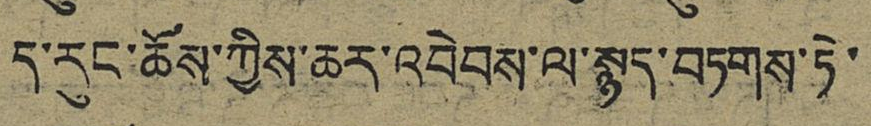ད་རུང་ཆོས་ཀྱིས་ཆར་འབེབས་ལ་སྙད་བཏགས་ཏེ
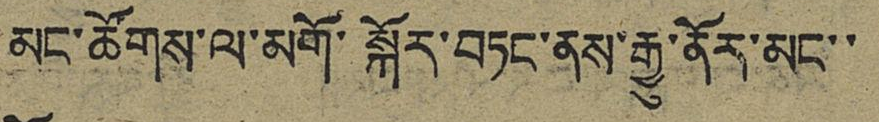མང་ཚོགས་ལ་མགོ་སྐོར་བཏང་ནས་རྒྱུ་ནོར་མང་་
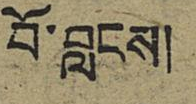པོ་བླངས།
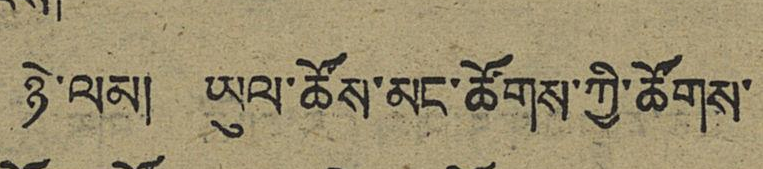ཉེ་ལམ། ཡུལ་ཚོས་མང་ཚོགས་ཀྱི་ཚོགས་
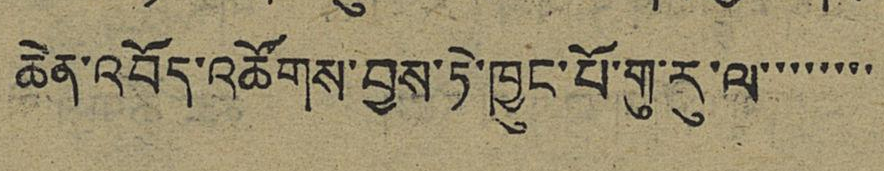ཆེན་འབོད་འཚོགས་བྱས་ཏེ་ཁྱུང་པོར་གུ་རུ་ལ་་་་་་་་
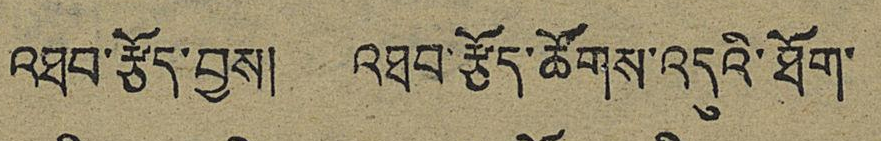འཐབ་རྩོད་བྱས། འཐབ་རྩོད་ཚོགས་འདུའི་ཐོག་
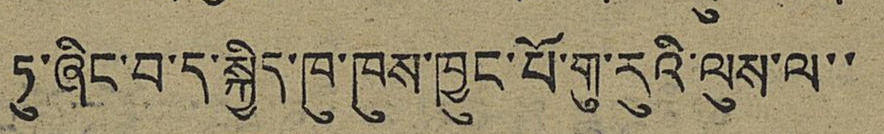ཏུ་ཞིང་བ་ད་སྐྱིད་ཁུ་ཁུས་ཁྱུང་པོ་གུ་རུའི་ལུས་ལ་་
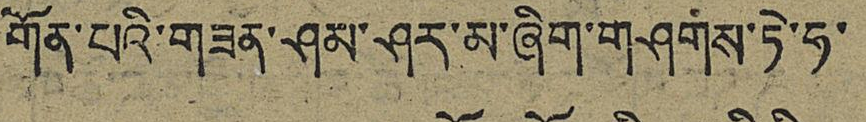གོན་པའི་གཟན་ཤམ་ཤར་མ་ཞིག་གཤགས་ཏེ་ཧ་
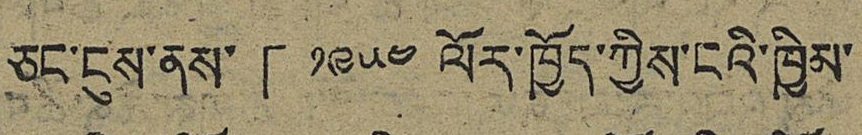ཅང་ངུས་ནས་「༡༩༥༤ ལོར་ཁྱོད་ཀྱིས་ངའི་ཁྱིམ་
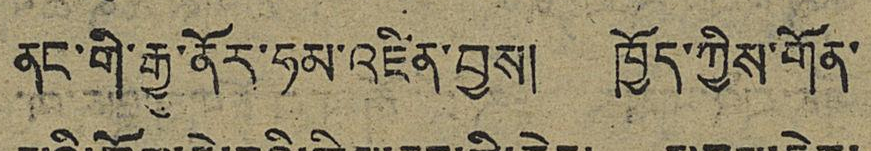ནང་གི་རྒྱུ་ནོར་ཧམ་འཛིན་བྱས། ཁྱོད་ཀྱིས་གོན་
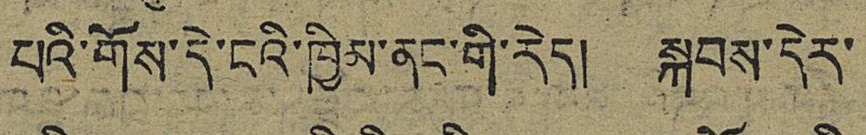པའི་གོས་དེ་ངའི་ཁྱིམ་ནང་གི་རེད། སྐབས་དེར་
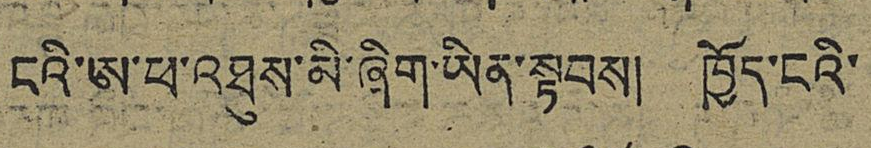ངའི་ཨ་ཕ་འཐུས་མི་ཞིག་ཡིན་སྟབས། ཁྱོད་ངའི་
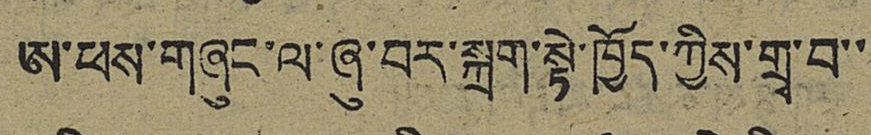ཨ་ཕས་གཞུང་ལ་ཞུ་བར་སྐྲག་སྟེ་ཁྱོད་ཀྱིས་གྲྭ་བ་
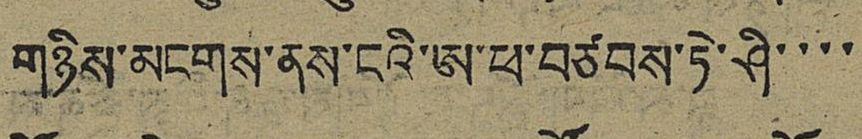གཉིས་མངགས་ནས་ངའི་ཨ་ཕ་བཙབས་ཏེ་ཤི་་་
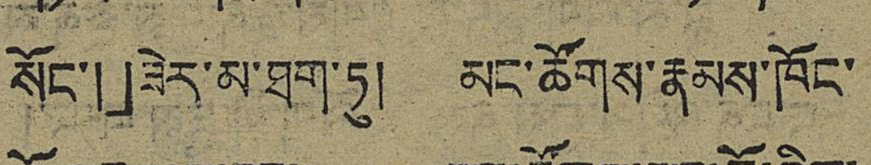སོང་།」ཟེར་མ་ཐག་ཏུ། མང་ཚོགས་རྣམས་ཁོང་
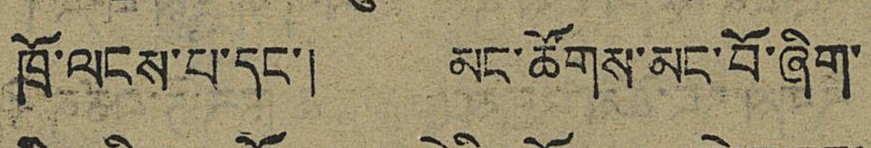ཁྲོ་ལངས་པ་དང་། མང་ཚོགས་མང་བོ་ཞིག་
